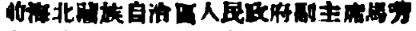前海北藏族自治區人民政府副主席馬芳
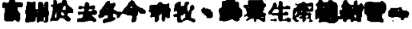富關於去冬今春牧、農業生產總結暨一
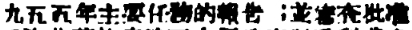九五五年主要任務的報告；並審查批准
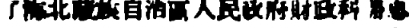了海北藏族自治區人民政府財政科駱忠
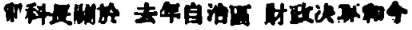副科長關於 去年自治區 財政決算和今
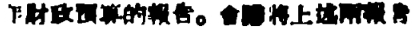年財政預算的報告。會議將上述兩報告
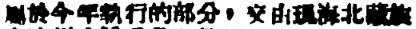屬於今年執行的部分，交由現海北藏族
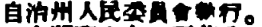自治州人民委員會執行。
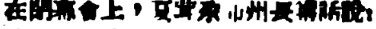在閉幕會上，夏茸尕布州長講話說：
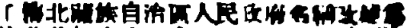「海北藏族自治區人民政府名稱改變爲
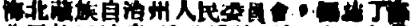海北藏族自治州人民委員會，體現了海
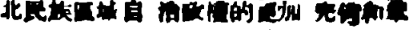北民族區域自 治政權的更加 完備和鞏
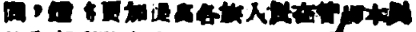固，這將更加提高各族人民在管理本民
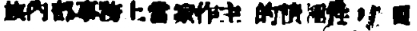族內部事務上當家作主 的積極性，更
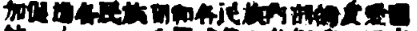加促進各民族間和各民族內部的友愛團
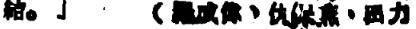結。」 （羅成偉、仇保燕、田力
